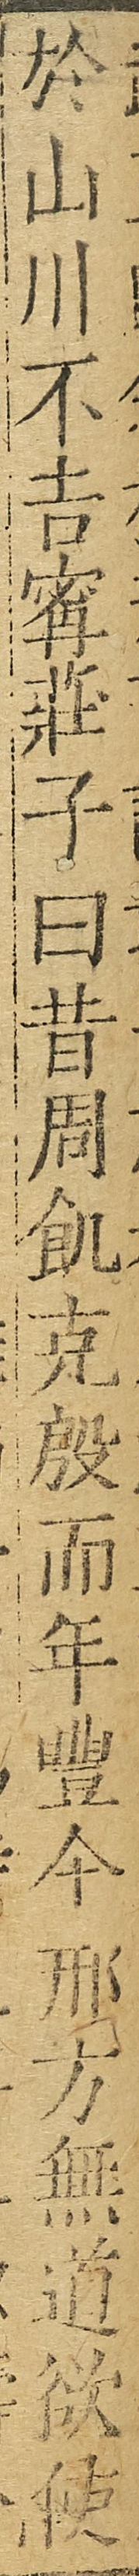於山川不吉甯莊子曰昔周飢克殷而年豐今邢方無道欲使
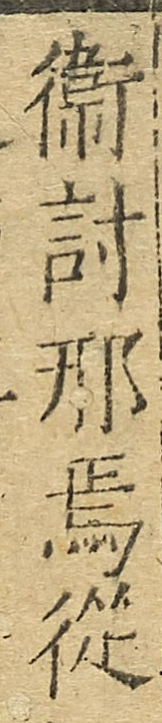衞討邢焉從
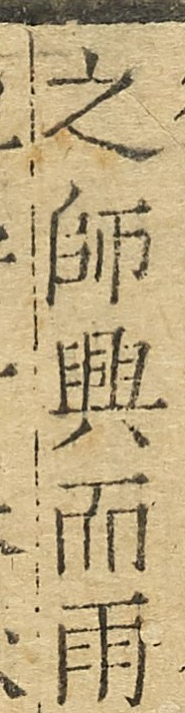之師興而雨
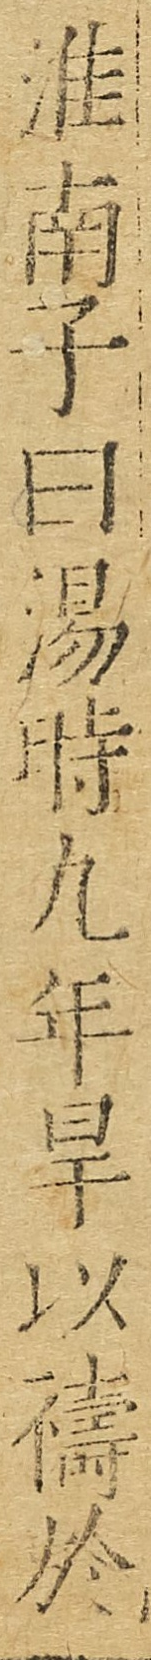淮南子曰湯時九年旱以禱於
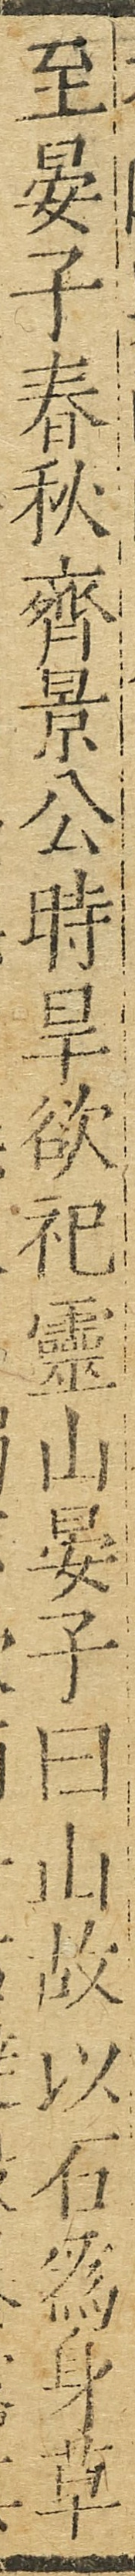至晏子春秋齊景公時旱欲祀靈山晏子曰山故以石爲身草
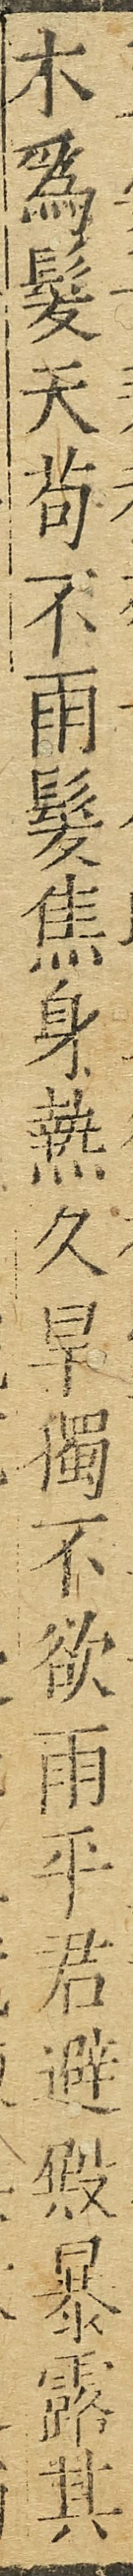木爲髮天苟不雨髮焦身熱久旱獨不欲雨乎君避殿暴露其
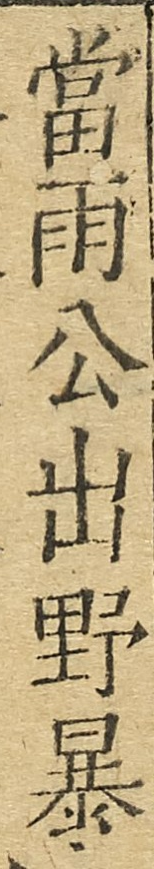當雨公出野暴
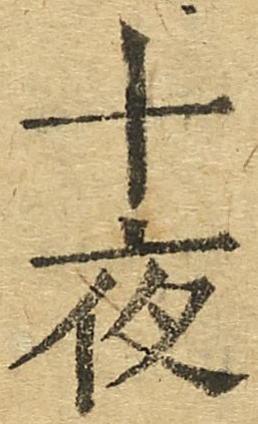十夜
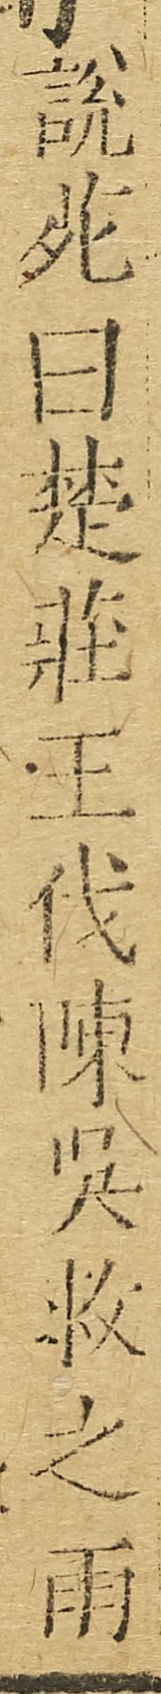說苑曰楚莊王伐陳吳救之雨
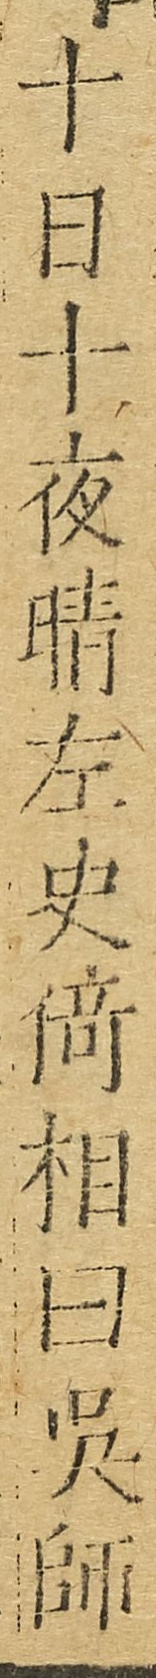十日十夜晴左史倚相曰吳師
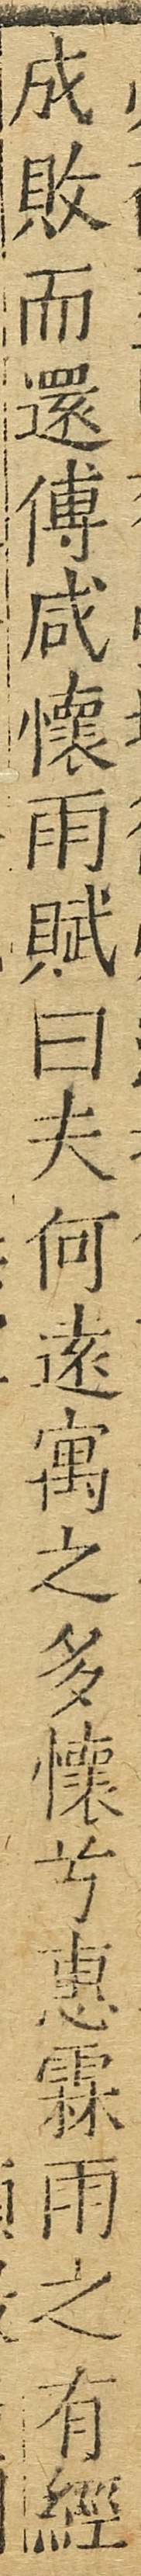成敗而還傅咸懷雨賦曰夫何遠寓之多懷兮惠霖雨之有經
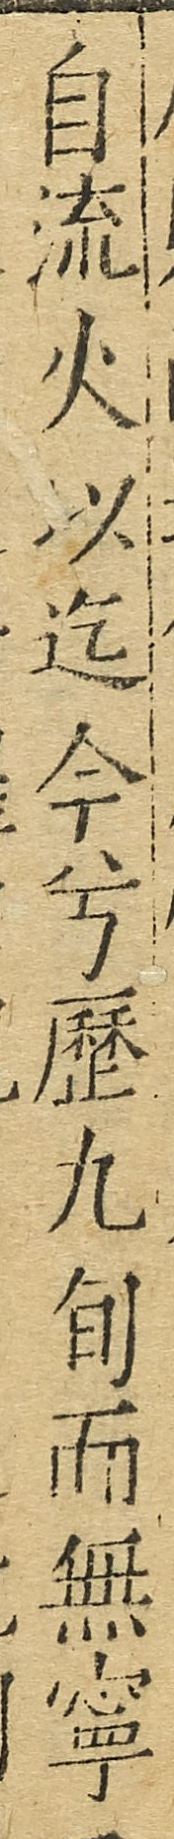自流火以迄今兮歷九旬而無寧
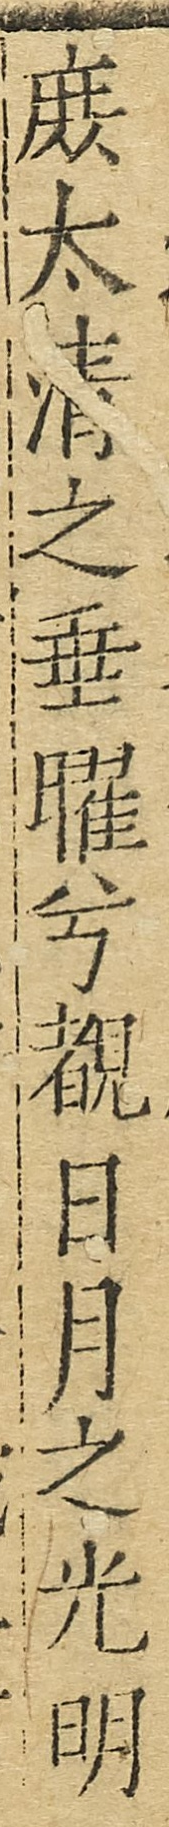庶太清之垂曜兮覩日月之光明
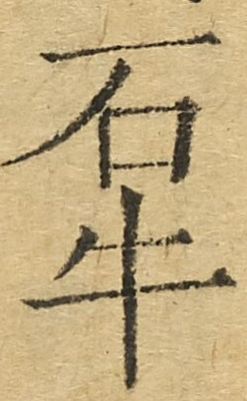石牛
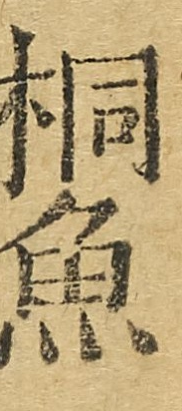桐魚
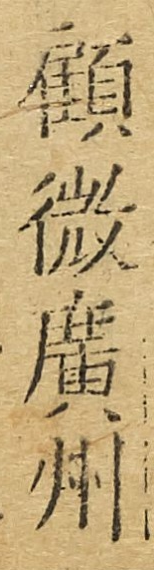顧微廣州
